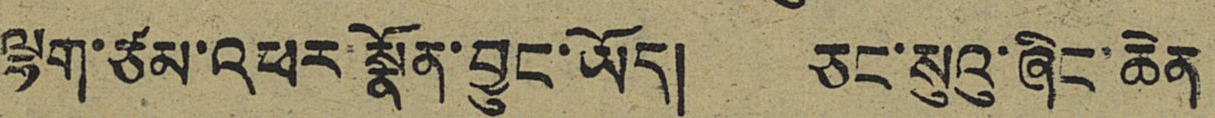ལྷག་ཙམ་འཕར་སྣོན་བྱུང་ཡོད། ཅང་སུའུ་ཞིང་ཆེན
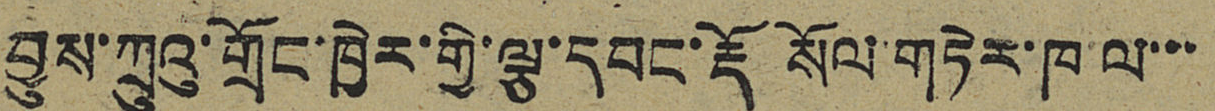བྱུས་ཀྲུའུ་གྲོང་ཁྱེར་གྱི་ལྕ་དབང་རྡོ སོལ་གྲེར་ཁ་ལ་་་
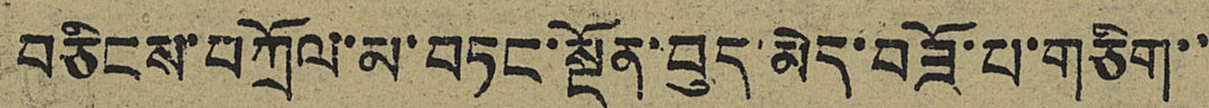བཅིངས་བཀྲོལ་མ་བཏང་སྔོན་བུད་མེད་བཟོ་པ་གཅིག་་
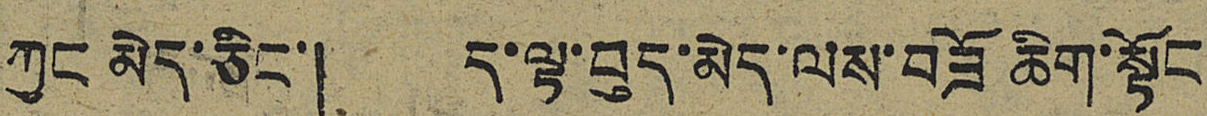ཀྱང་མེད་ཅིང་། ད་ལྟ་བུད་མེད་ལས་བཟོ ཆིག་སྟོང
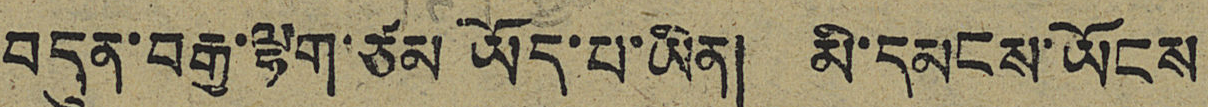བདུན་བརྒྱ་ལྷག་ཙམ ཡོད་པ་ཡིན། མི་དམངས་ཡོངས
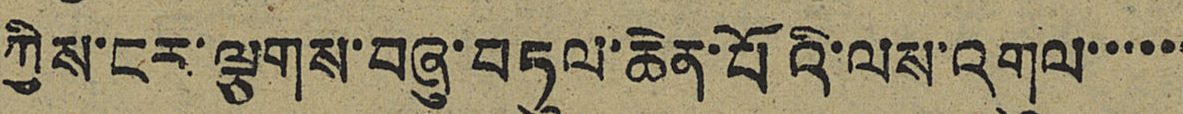ཀྱིས་ངར་ལྕགས་བཞུ་བཏུལ་ཆེན་པོའི་ལས་འགུལ་་་་་་
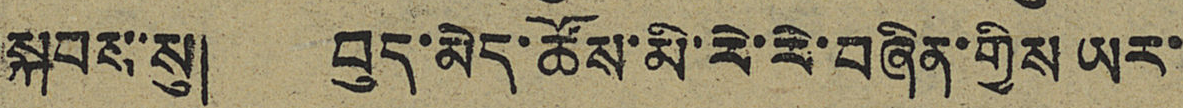སྐབས་སུ། བུད་མེད་ཚོས་མི་རེ་རེ་བཞིན་གྱིས ཡར་
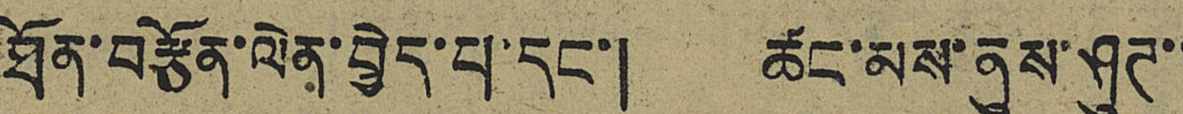ཐོན་བརྩོན་ལེན་བྱེད་པ་དང་། ཚང་མས་ནུས་ཤུཊ་་
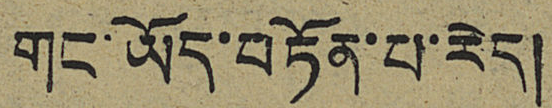གང་ཡོད་བཏོན་པ་རེད།
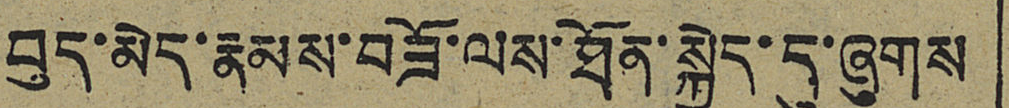བུད་མེད་རྣམས་བཟོ་ལས་ཐོན་སྐྱེད་དུ་ཞུགས
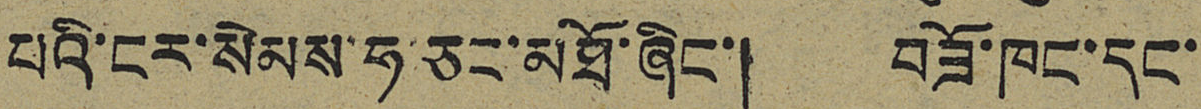པའི་ངར་སེམས་ཧ་ཅང་མཐོ་ཞིང་། བཟོ་ཁང་དང་
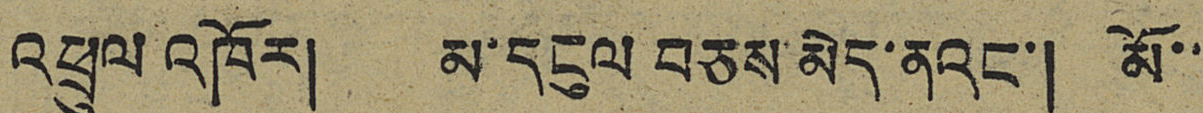འཕྲུལ་འཁོར། མ་དངུལ བཅས་མེད་ནའང་། མོ་་
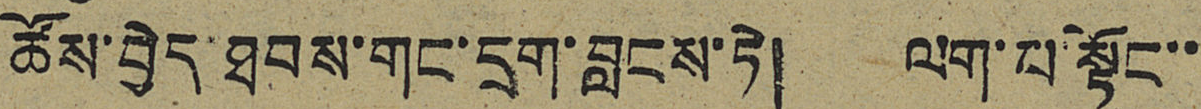ཚོས་བྱེད་ཐབས་གང་དྲག་བླངས་ཏེ། ལག་པ་སྟོང་་
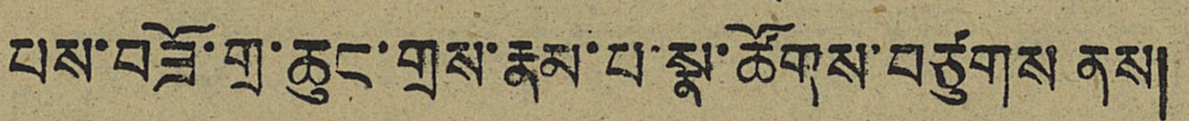པས་བཟོ་གྲ་ཆུང་གྲས་རྣམ་པ་སྣ་ཚོགས་བཙུགས ནས།
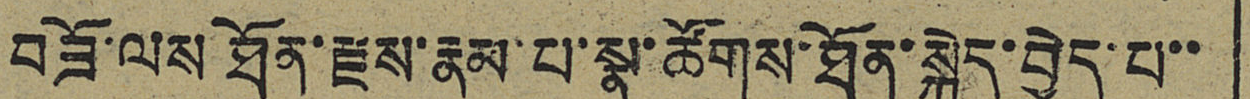བཟོ་ལས ཐོན་རྫས་རྣམ་པ་སྣ་ཚོགས་ཐོན་སྐྱེད་བྱེད་པ་་
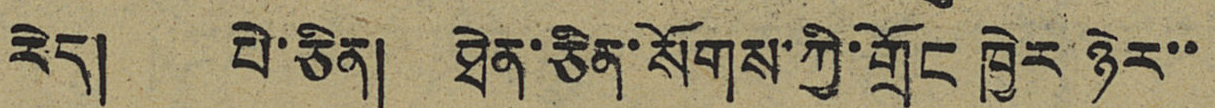རེད། པེ་ཅིན། ཐེན་ཅིན་སོགས་ཀྱི་གྲོང ཁྱེར་ཉེར་་
